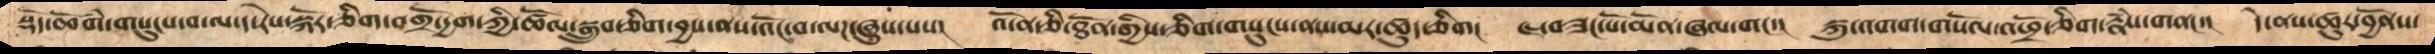སྡོད་ཆོགཾ་གསུངས་བ་ལ་ད་རེས་སྐོར་ཅིག་བགྲོ་དྱག་ཀྱི་ཚོལ་སྒྲུབ་ཅིག་བྱས་ནས་འོང་བ་ལཌ་ཞུས་པས།  འོ་ན་ཅི་ཐོན་གྱིས་ཅིག་གསུངས་ནས་མར་ཚུད་གཅིག།   ཇ་བཟང་པོ་མོན་ཞལ་གང་།   སྐུ་འགག་གསོལ་འཕྲོ་ཅིག་རྣཾས་གནང་།   དེ་ནས་ཚུར་བྱོནས་
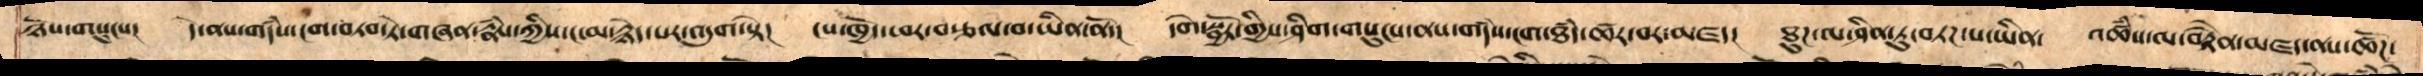ཉོས་གསུངས།   དེ་ནས་གདཾས་ངག་བཏབ་ཏེ་གཞན་རྣཾས་ཀྱིས་ང་མ་རྙེད་པར་འདུག་སྟེ།   ངས་ཁྱོད་ཕར་བརྩལ་བ་ཡིན་ནོ་།   དགེ་སྦྱོར་གྱིས་ཤིག་གསུངས་ནས་གདཾས་ངག་ཐཾད་ཚར་བར་མཛད།   ཐུཌ་ལ་ཤིན་ཏུ་བཏཌ་པ་ཡིན་  འཚཾས་ལ་བརྟཻན་མཛད་ནས་ཚོཌ་
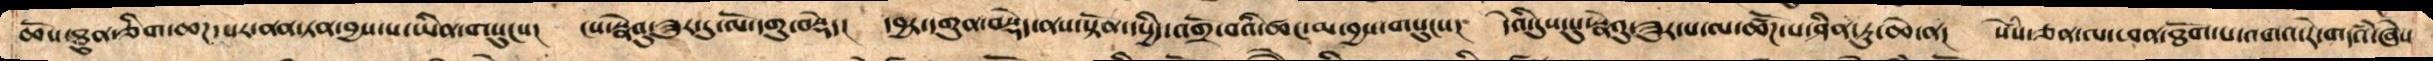ཆོས་ཐུན་ཅིག་ཆཌ་པར་ནན་ཏན་བྱས་པ་ཡིན་གསུངས།   ངས་སྣེའུ་ཟུར་དུ་ལོ་དགུ་བསྡེད།   དབྱར་དགུན་བསྡེད་ནས་སྟོན་དཔྱིད་འགྲོ་བའི་ཚང་་མ་བྱས་གསུངས།   དེ་དུས་སུ་སྣེའུ་ཟུར་པ་ལ་ཚོཌ་པ་ཤིན་ཏུ་ཆེ་ན།   སེསཾ་ཅན་ལ་ཕན་ཐོགས་པ་འགའ་རེ་གདའཾ་ཞེས
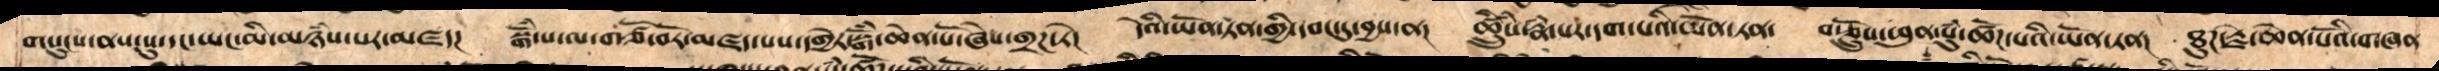གསུངས་ནས་སུ་དང་ཡང་མི་མཉཾས་པར་མཛད།   སྒོཾ་པ་ལ་གཙོ་བོར་མཛད་པས་དགྱེར་སྒོཾ་ཆེན་པོ་ཞེས་གྲཌ་ཏེ།  དེའི་ཡོན་ཏན་གྱི་དབང་དུ་བྱས་ན།   ཚྲིུཾས་རྣཾ་པར་དག་པའི་ཡོན་ཏན།   བརྩོནྲུས་ཕུན་སུཾ་ཚོཌ་པའི་ཡོན་ཏན།   ཐུཌ་རྗེ་ཆེན་པོའི་གཞན་
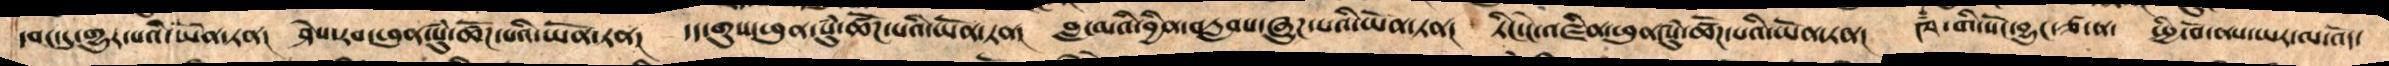དབང་དུ་གྱུར་པའི་ཡོན་ཏན།   ཤེས་རབ་ཕུན་སུཾ་ཚོཌ་པའི་ཡོན་ཏན།   དད་གུས་ཕུན་སུཾ་ཚོཌ་པའི་ཡོན་ཏན།   བླ་མའི་བྱིན་བརླབས་ཞུཌ་པའི་ཡོན་ཏན།   ཏིང་ངེ་འཛིན་ཕུན་སུཾ་ཚོཌ་པའི་ཡོན་ཏན།   ཁྂ་གི་སོང་བྱུང་ཙ་ན་  སྤྱི་བོ་ནས་ཡར་ལ་འོད་
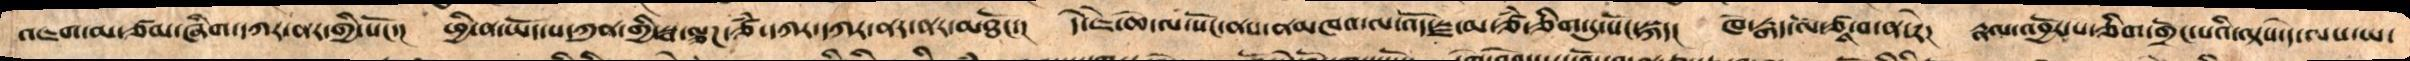འཇག་མ་ཙམ་ཞིག་དཀར་ནར་གྱི་སོང་།   ཕྱི་ན་ཡོད་པ་ཀུན་གྱི་སྦ་ལྕཌ་ཙཾ་དཀར་དཀར་ནར་ནར་མཐོང་།   དེ་ཇེ་ཆེ་ལ་སོང་ནས་ནམཁའ་ལ་འོད་སྫ་མ་ཙཾ་ཅིག་ཏུ་སོང་སྐད།   ཁོ་རྒད་ལོ་ཙཱ་བ་ན་རེ།   རྣལ་འབྱོར་པ་ཅིག་གྲོང་པའི་ལྟས་དེ་ལས་ཡ་
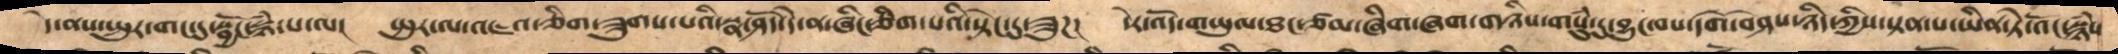དེ་ནས་སྤུར་གང་དུ་སྦྱོང་སྙཾ་པ་ལ།   སྤུར་ལ་འཇའ་ཅིག་ཟུགས་པའི་སྣ་ཤོད་དེ་ན་ཞིང་ཅིག་པའི་སྟེང་དུ་ཟུཌ།   དེར་འོད་གཡུལ་ཐང་ཙམ་ཞིག་ཞག་གཉིས་གསུཾ་དུ་བྱུང་བས་དགེ་བཤེས་ཉིད་ཀྱིས་སྟན་པ་ཡིན་ཏེ་འོང་སྙཾས་
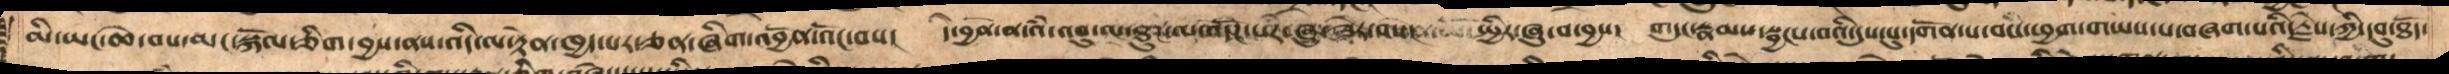མི་ཡང་ཆེ་བས་མང་སྐོལ་ཅིག་བྱས་ནས་འདི་ལ་རྟེན་ཁྱད་པར་ཅན་ཞིག་འབྱོན་འོང་བས།   དེ་བྱོན་ན་འཾ་འབུ་ལ་ཐུཌ་ལ་འདོཌ་པར་ཞུ་ཟེར་བས།   སྤྱིར་ཞུས་བྱས།   གདུང་རྣམས་སྦྱངས་བའི་དུས་སུ་དགོན་པ་བའི་ཕྱག་གཡས་པ་བཞག་པའི་རྗེས་ཀྱི་དབུ་ཐོད་
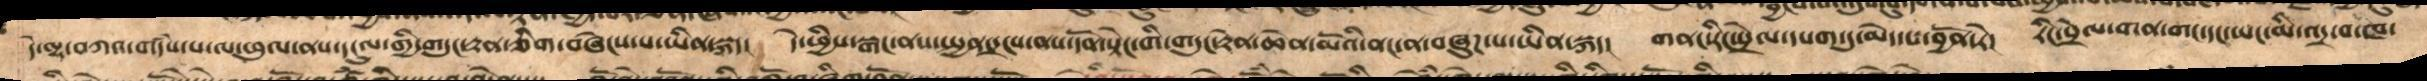དེ་ལྷ་བཀའ་གདཾས་པ་ལ་ཕུལ་ནས་དངུལ་གྱི་གདུང་རྟན་ཅིག་བཞེངས་པ་ཡིན་སྐད།   དེ་ཕྱིས་སྒང་ནས་སྤྱན་དྲངས་ནས་དོན་སྟེང་གི་གདུང་རྟེན་ཆེན་མོའི་ནང་ན་བཞུཌ་པ་ཡིན་སྐད།   གནང་རིང་སྲེལ་དཔག་ཏུ་མེད་པ་བྱོན་ཏེ།   རིང་སྲེལ་གན་གང་དང་ཡང་མི་འདྲ་བ་ཁ་
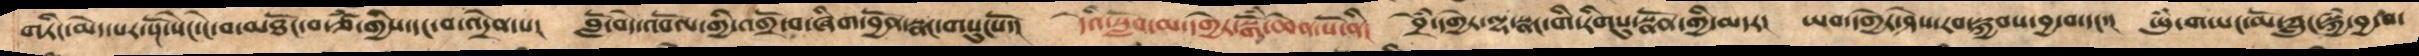གཏིང་མེད་པར་སྔོ་སེང་བ་མཐོང་བ་ཙཾ་གྱིས་དང་བ་འདྲེན་པ།   བློ་བདེ་འབོལ་གྱི་འགྲོ་བ་ཞིག་བྱོན་སྣང་གསུངསོ་།   དེའི་སློབ་མ་དགྱེར་སྒོཾ་ཆེན་པོ་ནི།   བྲེ་ཾདགྱེར་ལྷ་སྣང་གི་རིགསུ་སྣོན་གྱི་མདར།   ཡབ་དགྱེར་ཤེས་རབ་སྐྱབས་བྱ་བ་དང་།   ཡུཾ་གཡང་མོ་ཀླུ་སྐྱཾ་བྱ་བ་
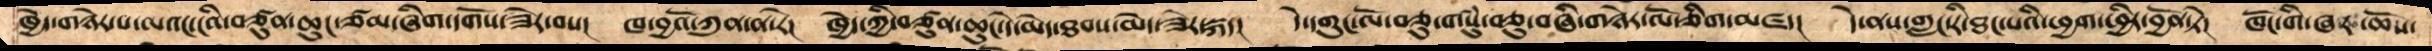ཁྱེད་གཉེར་པ་ལའང་ངའི་བཙུན་ཆུང་ཙམ་ཞིག་དགོས་ཟེར་བས།   ཁ་བྱའོ་ཀུན་ན་རེ།   ཁྱེད་ཀྱི་བཙུན་ཆུང་དེ་མེད་ཐབས་མེད་ཟེར་སྐད།   དེ་དགུང་ལོ་བཅུ་གསུཾ་བཅུ་བཞི་གཉེར་ལོ་ཅིག་མཛད།   དེ་ནས་གླང་རི་ཐང་པའི་ཕྱག་ཕྱིར་བྱོན་ཏེ།  ཁོང་གི་ཞར་ཆོས་
